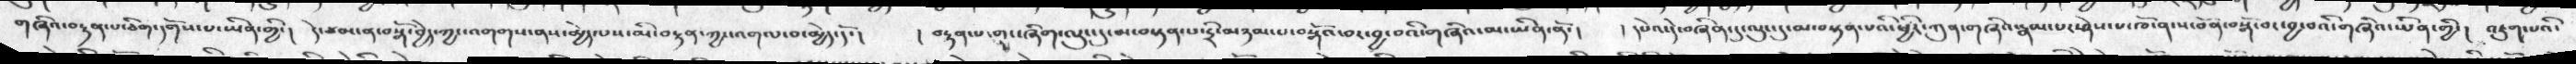གཞིའ་བརྟན་པ་ཐིག་དགོས་པ་ཡིན་གྱི་།   དེ་ཙམ་ན་བསྒོ་བྱེད་ཀྱང་འགགས་ནས་མྱེད་པས་མི་བརྟན་ཀྱང་འགལ་བ་མྱེད་དོ་།  ། བརྟན་པ་གང་ཞིག་ལུང་དུ་མ་བསྟན་པ་དྲི་མཉམ་པ་བསྒོའ་བར་བྱ་བའི་གཞིའ་མ་ཡིན་ནོ་ །  ། དཔེའ་དེ་བཞིན་དུ་ལུང་དུ་མ་བསྟན་པའི་ཕྱིར་ཀུན་གཞིའ་རྣམ་པར་ཤེས་པ་ཁོ་ན་ས་བོན་བསྒོ་བར་བྱ་བའི་གཞིའ་ཡིན་གྱི་།  འཇུག་པའི་
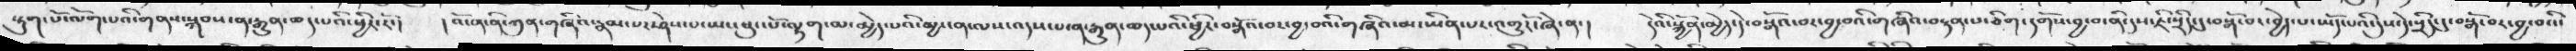སྟུག་པོ་ལོག་པའི་གནས་སྐབས་ན་རྒྱུན་ཆད་པའི་ཕྱིར་རོ་།  ། འོ་ན་ནི་ཀུན་གཞིའ་རྣམ་པར་ཤེས་པ་ཡང་ཕུང་པོ་ལྷག་མ་མྱེད་པའི་མྱ་ངན་ལས་འདས་པ་ན་རྒྱུུན་ཆད་པའི་ཕྱིར་བསྒོའ་བར་བྱ་བའི་གཞིའ་མ་ཡིན་པར་འགྱུརོ་ཞེ་ན་།    དེའི་སྐྱོན་མྱེད་དེ་བསྒོའ་བར་བྱ་བའི་གཞིའ་བརྟན་པ་ཅིག་དགོས་བྱ་བ་ནི་དུས་ཇི་སྲིད་དུ་བསྒོ་བར་བྱེད་པ་ཡོད་པའི་དུས་དེ་སྲིད་དུ་བསྒོ་བར་བྱ་བའི་
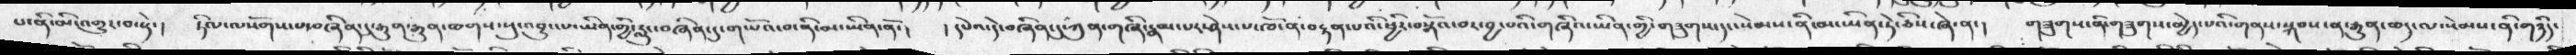པ་ནི་མི་འགྱུར་བ་སྟེ་།  ཏིལ་ལསོགས་པ་བཞིན་དུ་རྒྱུན་རྒྱུན་ཆགས་སུ་འབྱུང་པ་ཡིན་གྱིས་རླུང་བཞིན་དུ་གཡོའ་བ་ནི་མ་ཡིན་ནོ་།   ། དཔེའ་དེ་བཞིན་དུ་ཀུན་གཞི་རྣམ་པར་ཤེས་པ་ཁོ་ན་བརྟན་པའི་ཕྱིར་བསྒོའ་བར་བྱ་པའི་གཞིའ་ཡིན་གྱི་གཟུགས་དང་སེམས་ནི་མ་ཡིན་ཏེ་ཅི་ཞེ་ན་།  གཟུགས་ནི་གཟུགས་མྱེད་པའི་གནས་སྐབས་ན་རྒྱུན་ཆད་ལ་སེམས་ནི་གཉིད་
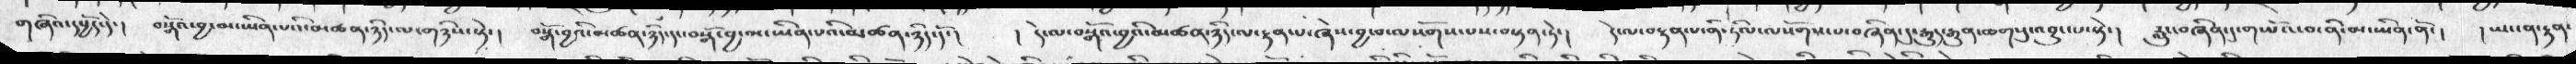གཞིའ་དཔྱོད་དེ་།   བསྒོའ་བྱ་མ་ཡིན་པཔའི་མཚན་ཉིད་ལ་གཉིས་སྟེ་།   བསྒོ་བྱའི་མཚན་ཉིད་དང་བསྒོ་བྱ་མ་ཡིན་པའི་མཚན་ཉིད་དོ་།     ། དེ་ལ་བསྒོའ་བྱའི་མཚན་ཉིད་ལ་རྟན་པ་ཞེས་བྱ་བ་ལསོགས་པས་བསྟན་ཏེ་།  དེ་ལ་བསྟན་པ་ནི་ཏིལ་ལསོགས་པ་བཞིན་དུ་རྒྱུད་རྒྱུན་ཆགསུ་འབྱུང་པ་སྟེ་།   རླུང་བཞིན་དུ་གཡོའ་བ་ནི་མ་ཡིན་ནོ་།   །  ཡང་ན་རྟན་
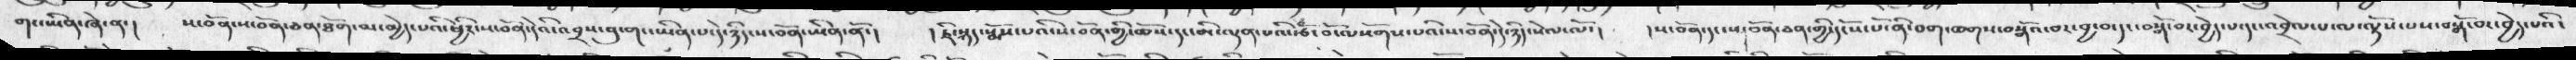གང་ཡིན་ཞེ་ན་།  ས་བོན་ས་བོན་ཅན་ཐོག་མ་མྱེད་པའི་ཕྱིར་ས་བོན་དེའི་འབྲས་བུ་གང་ཡིན་པ་དེ་ཉིད་ས་བོན་ཡིན་ནོ་།   ། ཇི་སྐད་སྨོས་པའི་ས་བོན་གྱི་ཆོས་དང་མི་ལྡན་པའི་རྩ་བ་ལསོགས་པའི་ས་བོན་དེ་ཉིད་སེལ་ལོ་།  ། ས་བོན་དང་ས་བོན་ཅན་གྱི་དངོས་པོ་ནི་བག་ཆགས་བསྒོའ་བར་བྱ་བ་དང་བསྒོ་བར་བྱེད་པ་དང་འབྲེལ་པ་ལ་ལྟོས་པས་བསྒོ་བར་བྱེད་པའི་
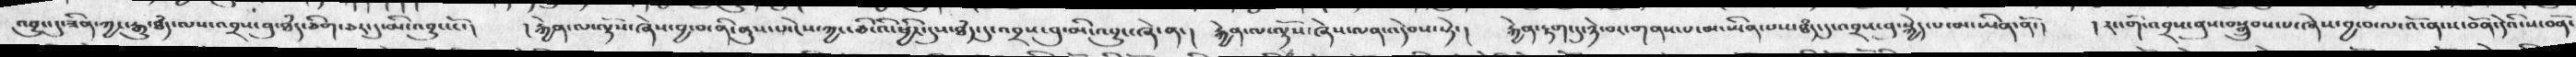འབྱུང་དུ་ཟིན་ཀྱང་རྒྱུ་ཐཾད་ལས་འབྲས་བུ་ཐཾད་ཅིག་ཅར་དུ་མི་འབྱུང་ངོ་།   ། རྐྱེན་ལ་ལྟོས་ཞེས་བྱ་བ་ནི་ནུས་པ་ངེས་ཀྱང་ཅི་འི་ཕྱིར་དུས་ཐཾད་དུ་འབྲས་བུ་མི་འབྱུང་ཞེ་ན་།   རྐྱེན་ལ་ལྟོས་ཞེས་ལན་འདེབས་སྟེ་།  རྐྱེན་རྟག་དུ་ཉེ་བར་གནས་པ་མ་ཡིན་པས་ཐཾད་དུ་འབྲས་བུ་སྐྱེད་པ་མ་ཡིན་ནོ་།   ། རང་གི་འབྲས་བུས་བསྒྲུབས་པ་ཞེས་བྱ་བ་ལ་འོ་ན་ས་བོན་དེའི་ས་བོན་
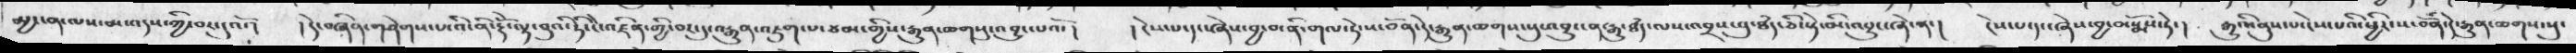མྱ་ངན་ལས་མ་འདས་ཀྱི་བར་དུའོ་།   ། དེ་བཞིན་གཤེགས་པ་འི་ནི་རྡོེ་ལྟ་བུའི་ཏིང་ངེ་འཛིན་གྱི་བར་དུ་འརྒྱུན་འཇུག་པ་ཐམ་གྱིས་རྒྱུན་ཆགསུ་འབྱུང་པའོ་ །  ། ངེས་པ་དང་ཞེས་བྱ་བ་ནི་གལ་ཏེ་ས་བོན་དེ་རྒྱུན་ཆགས་སུ་འབྱུང་ན་རྒྱུ་ཐཾད་ལས་འབྲས་བུ་ཐཾད་ཅི་སྟེ་མི་འབྱུང་ཞེ་ན་།     ངེས་པ་དང་ཞེས་བྱ་བ་སྨོས་ཏེ་།   རྒྱུའི་ནུས་པ་ངེས་པའི་ཕྱིར་ས་བོན་དེ་རྒྱུན་ཆགས་སུ་
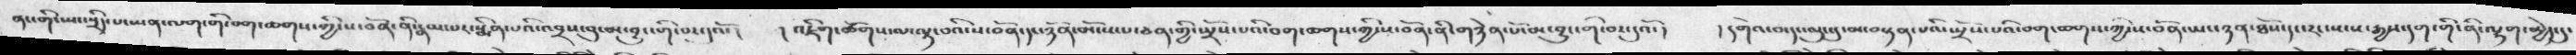ནང་གི་ཡང་སྲིད་པ་ཡན་ལག་གི་བག་ཆགས་གྱི་ས་བོན་ནི་རྣམ་པར་སྨིན་པའི་འབྲས་བུ་མ་བྱུང་གི་བར་དུའོ་།   ། འཇིག་ཚོགས་ལ་ལྟ་བའི་ས་བོན་དང་ཉོན་མོངས་པ་ཅན་གྱི་ཡྲོས་པའི་བག་ཆགས་ཀྱི་ས་བོན་ནི་གཉེན་པོ་མ་བྱུང་གི་བར་དུའོ་།   ། དགེའ་བ་དང་ལུང་དུ་མ་བསྟན་པའི་ཡྲོས་པའི་བག་ཆགས་ཀྱི་ས་བོན་ཡང་ཉན་ཐོས་དང་རང་སངས་རྒྱས་དག་གི་ནི་ལྷག་མྱེད་དུ་
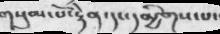གསུམ་པོ་རྟེན་དང་དམྱིགས་པ་
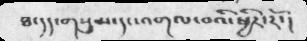ཐ་དད་གསུམ་དང་འགལ་བའི་ཕྱིར་རོ་།
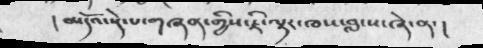མདོའ་སྡེ་པ་གཞན་གྱིས་ཇི་ལྟར་ཁས་བླངས་ཞེ་ན་།
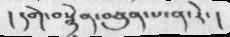།  དེག་བསྙེན་བཙུན་པ་ན་རེ་ །
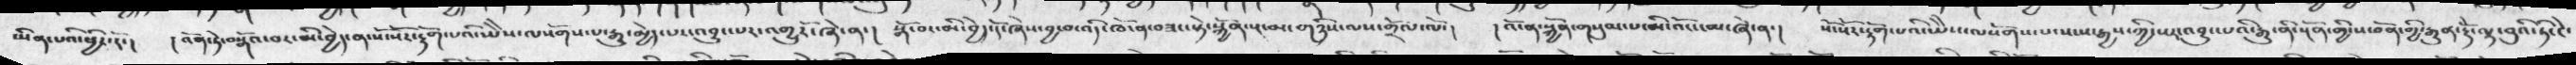མིན་པའི་ཕྱིར་རོ་།  ། འོན་ཏེ་བསྒོའ་བར་མི་བྱེད་ན་སོ་སོར་རྟོག་པའི་ཡེེས་ལསོགས་པ་རྒྱུ་མྱེད་པར་འབྱུང་པར་འགྱུརོ་ཞེ་ན་།   སྒོ་བར་མི་བྱེད་དོ་ཞེས་བྱ་བ་འདི་ཁོ་ན་བཟང་སྟེ་སྐྱོན་སྔ་མ་གཉིས་ལས་གྲོལ་ལོ་།   ། འོ་ན་སྐྱོན་གསུམ་པ་མི་འོང་ངམ་ཞེ་ན་།    སོ་སོར་རྟོག་པའི་ཡེེས་ལསོགས་པ་སངས་རྒྱས་ཀྱི་སར་འབྱུང་པའི་རྒྱུ་ནི་སྔོན་གྱི་ས་བོན་གྱི་རྒྱུན་རྡོེ་ལྟ་བུའི་ཏིང་ངེ་
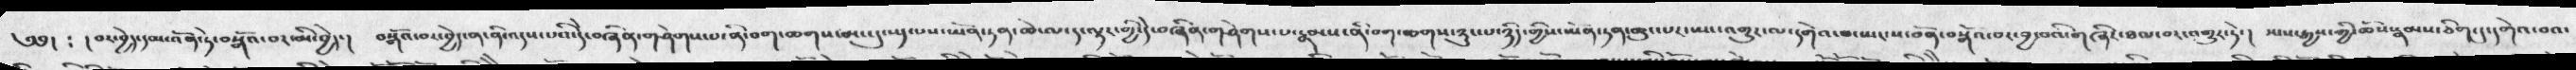༄༅།  ༴  ། བར་བྱེད་དམ་འོན་ཏེ་བསྒོའ་བར་མི་བྱེད་།  བསྒོའ་བར་བྱེད་ན་ནི་འདས་པའི་དེ་བཞིན་གཤེགས་པ་ནི་བག་ཆགས་མང་དུ་སད་པས་ཡོན་ཏན་ཆེ་ལ་ད་ལྟར་གྱི་དེ་བཞིན་གཤེགས་པ་རྣམས་ནི་བག་ཆགས་ཉུང་པ་ཉིད་གྱིས་ཡོན་ཏན་ཆུང་པར་ཡང་འགྱུར་ལ་དགེའ་བ་ཡང་ས་བོན་བསྒོའ་བར་བྱ་བའི་གཞིར་ཐལ་བར་འགྱུར་ཏེ་།   སངས་རྒྱས་གྱི་ཆོས་རྣམས་ཅིག་དུ་དགེའ་བའ་
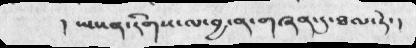། ཡང་ན་རིགས་ལ་བྱ་ན་གཞན་དུ་ཐལ་ཏེ་།
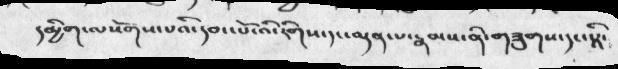དམྱིག་ལསོགས་པའི་དབང་པོ་འི་རིགས་དང་ལྡན་པ་རྣམས་ནི་གཟུགས་དང་དེར་
